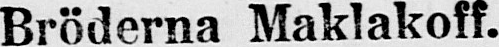Bröderna Maklakoff.
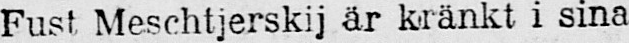Fust. Meschtjerskij är kränkt i sina
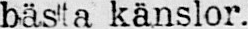bästa känslor.
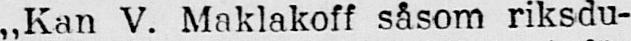„Kan V. Maklakoff såsom riksdu-
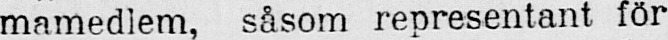mamedlem, såsom representant för
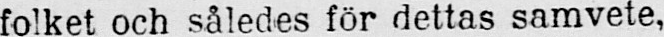folket och således för dettas samvete,
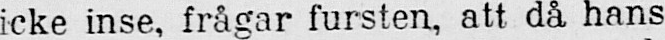icke inse, frågar fursten, att då hans
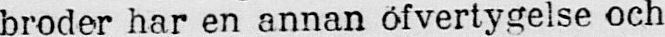broder har en annan öfvertygelse och
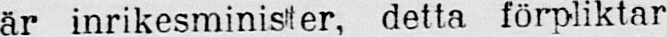är inrikesminister, detta förpliktar
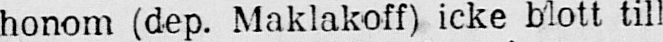honom (dep. Maklakoff) icke blott till
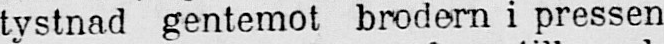tystnad gentemot brodern i pressen
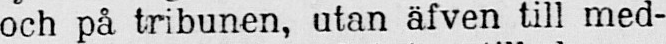och på tribunen, utan äfven till med-
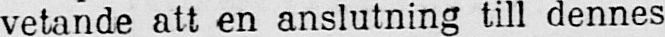vetande att en anslutning till dennes
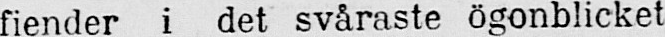fiender i det svåraste ögonblicket
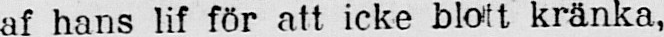af hans lif för att icke blott kränka,
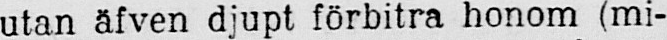utan äfven djupt förbitra honom (mi-
